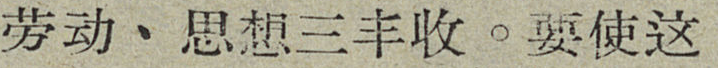劳动、思想三丰收。要使这
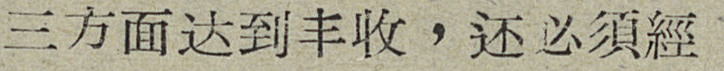三方面达到丰收，还必須經
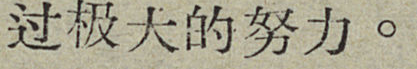过极大的努力。
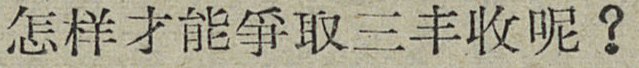怎样才能爭取三丰收呢？
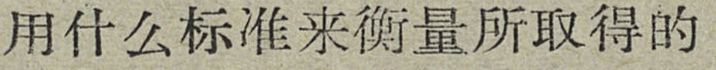用什么标准来衡量所取得的
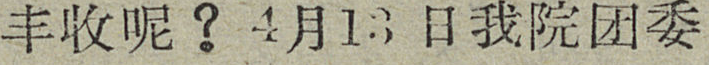丰收呢？4月13日我院团委
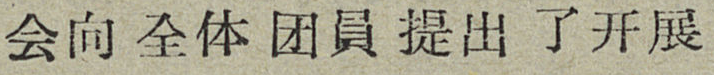会向全体团員提出了开展
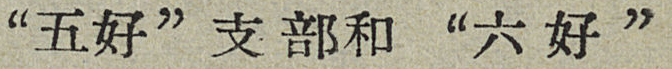“五好”支部和“六好”
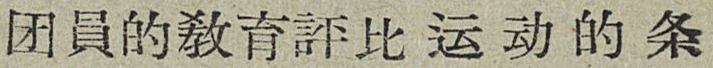团員的敎育評比运动的条
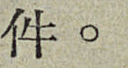件。
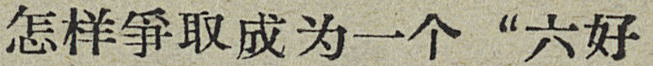怎样爭取成为一个“六好
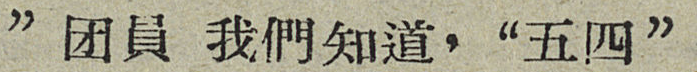”团員 我們知道，“五四”
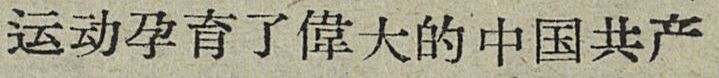运动孕育了偉大的中国共产
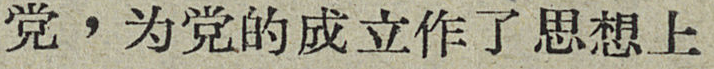党，为党的成立作了思想上
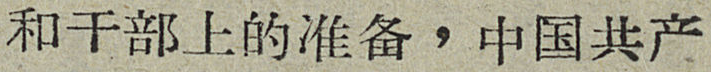和干部上的准备，中国共产
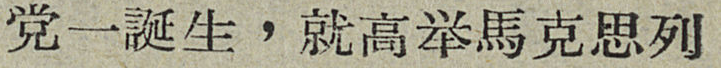党一誕生，就高举馬克思列
